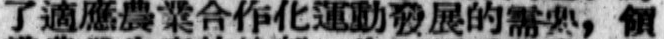了適應農業合作化運動發展的需要，領
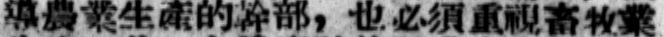導農業生產的幹部，也必須重視畜牧業
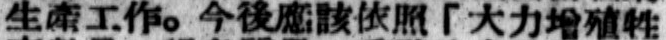生產工作。今後應該依照「大力增殖牲
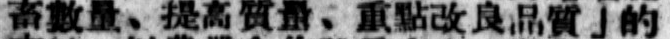畜數量、提高質量、重點改良品質」的
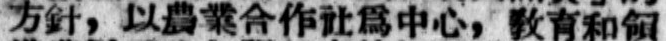方針，以農業合作社爲中心，敎育和領
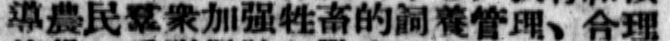導農民群眾加強牲畜的飼養管理、合理
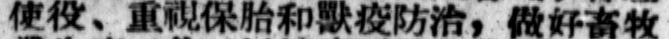使役、重視保胎和獸疫防治，做好畜牧
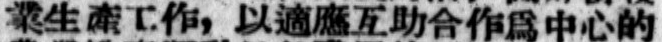業生產工作，以適應互助合作爲中心的
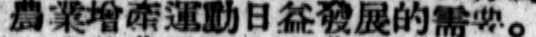農業增產運動日益發展的需要。
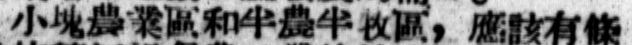小塊農業區和半農半牧區，應該有條
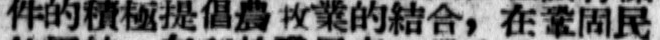件的積極提倡農牧業的結合，在鞏固民
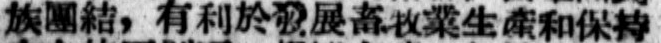族團結，有利於發展畜牧業生產和保持
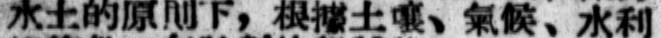水土的原則下，根據土壤、氣候、水利
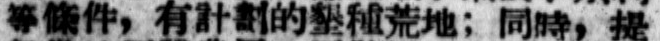等條件，有計劃的墾種荒地；同時，提
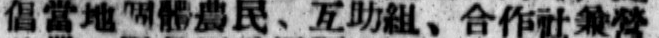倡當地個體農民、互助組、合作社兼營
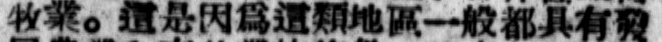牧業。這是因爲這類地區一般都具有發
